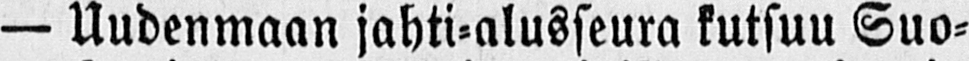— Uudenmaan jahti-alusseura kutsuu Suo-
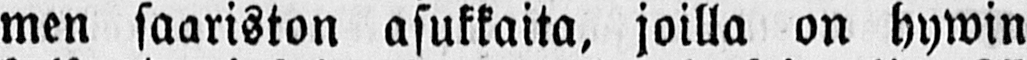men saariston asukkaita, joilla on hywin
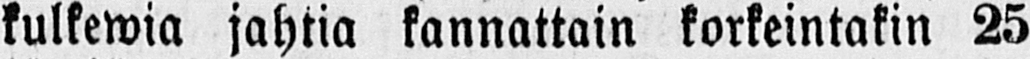kulkewia jahtia kannattain korkeintakin 25
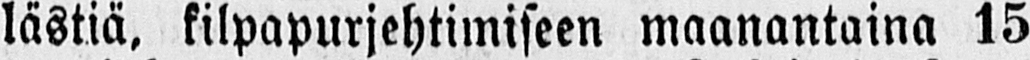läskiä, kilpapurjehtimiseen maanantaina 15
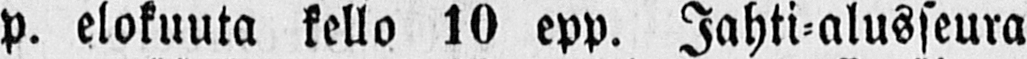p. elokuuta kello 10 epp. Jahti-alusseura
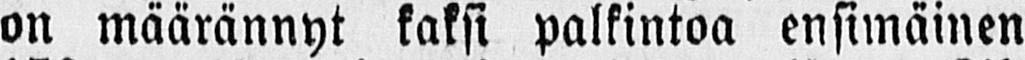on määrännyt kaksi palkintoa ensimäinen
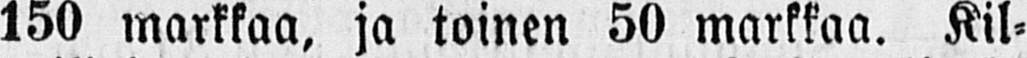150 markkaa, ja toinen 50 markkaa. Kil-
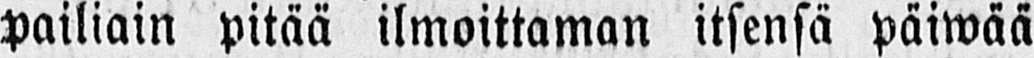pailiain pitää ilmoittaman itsensä päiwää
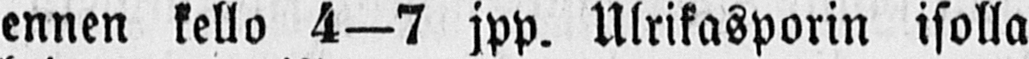ennen kello 4—7 jpp. Ulrikasporin isolla
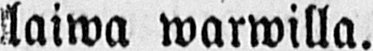laiwa warwilla.
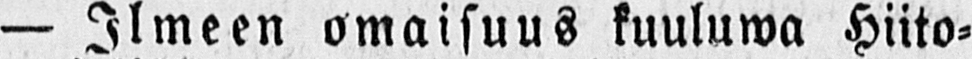— Ilmeen omaisuus kuuluwa Hiito-
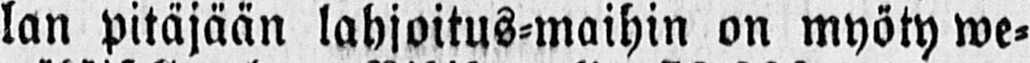lan pitäjään lahjoitus-maihin on myöty we-
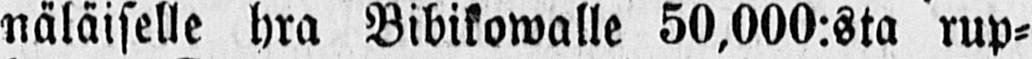näläiselle hra Bibikowalle 50,000:sta rup-
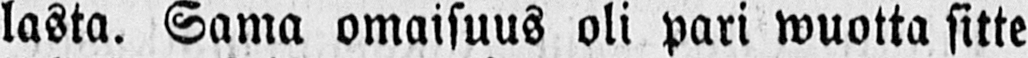lasta. Sama omaisuus oli pari wuotta sitte
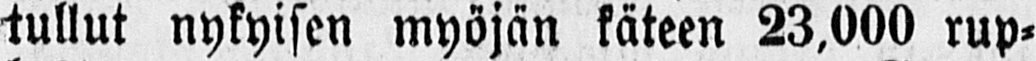tullut nykyisen myöjän käteen 23,000 rup-
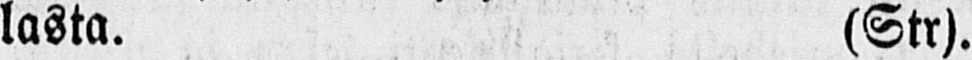lasta. (Str).
